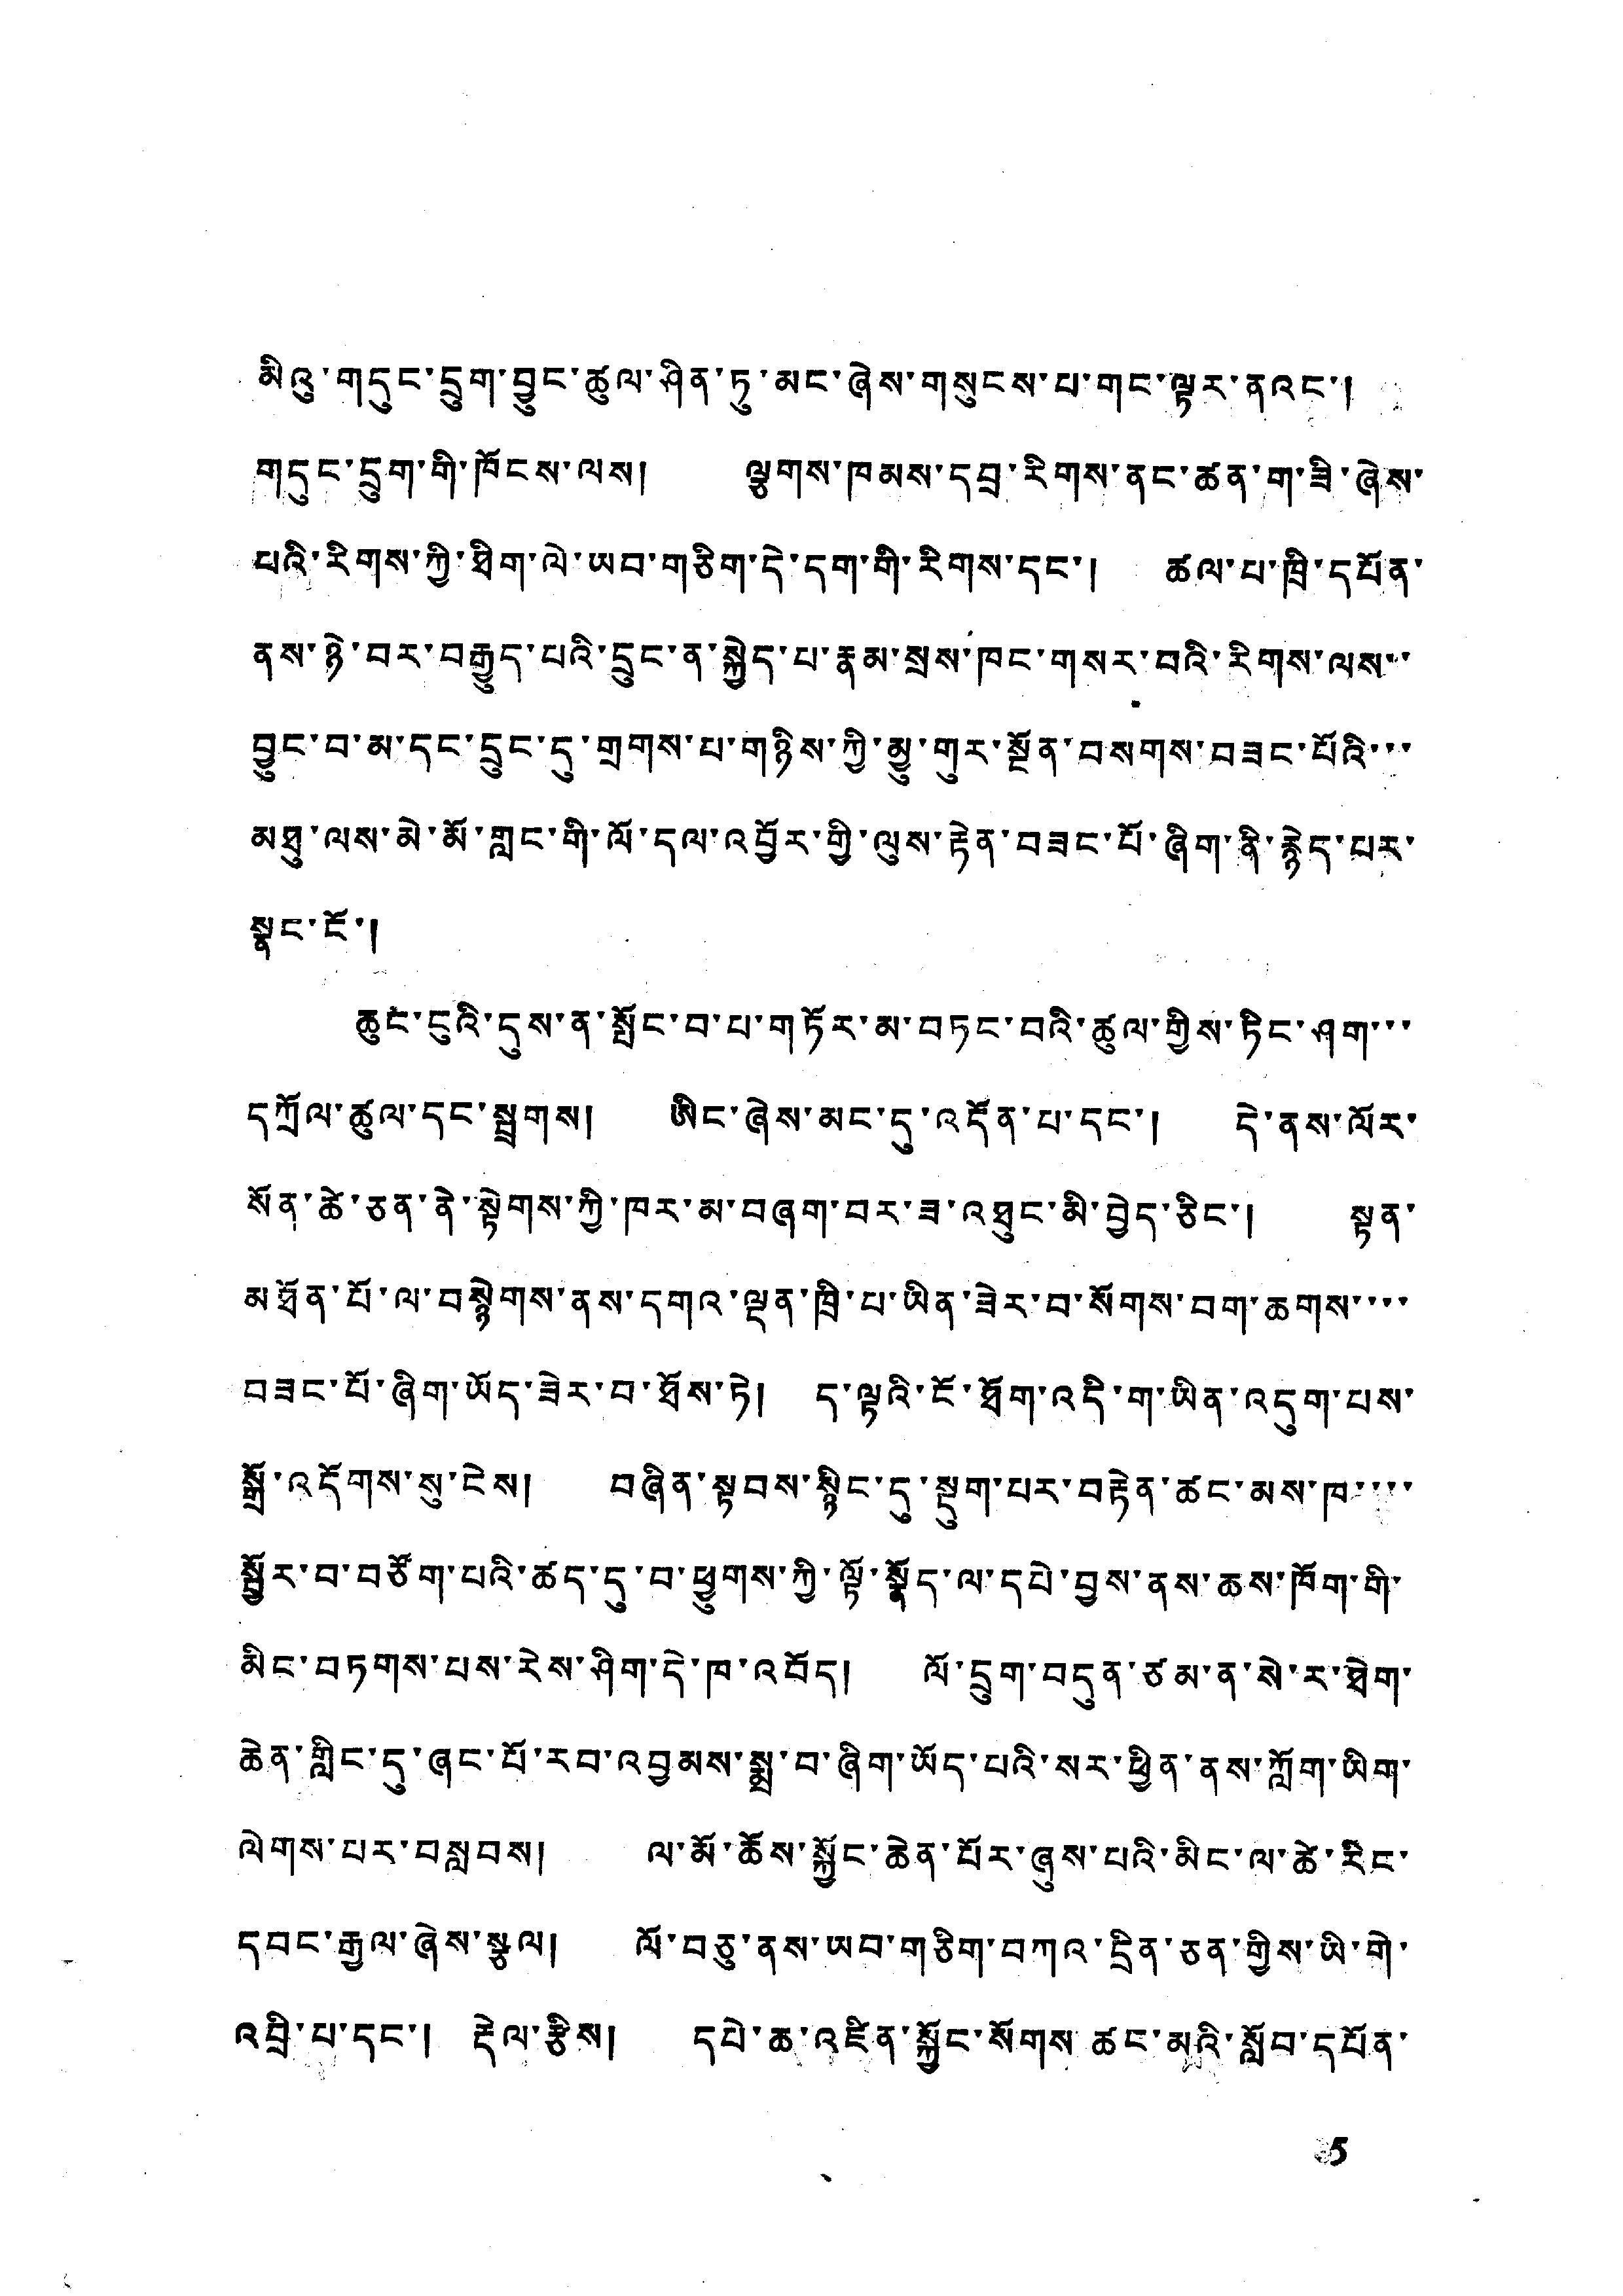མིའུ་གདུང་དྲུག་བྱུང་ཚུལ་ཤིན་ཏུ་མང་ཞེས་གསུངས་པ་གང་ལྟར་ནའང་།
གདུང་དྲུག་གི་ཁོངས་ལས། ལྕགས་ཁམས་དབྲ་རིགས་ནང་ཚན་ག་ཟི་ཞེས་
པའི་རིགས་ཀྱི་ཐིག་ལེ་ཡབ་གཅིག་དེ་དག་གི་རིགས་དང་། ཚལ་པ་ཁྲི་དཔོན་
ནས་ཉེ་བར་བརྒྱུད་པའི་དྲུང་ན་སྐྱེད་པ་རྣམ་སྲས་ཁང་གསར་བའི་རིགས་ལས་་
བྱུང་བ་མ་དང་དྲུང་དུ་གྲགས་པ་གཉིས་ཀྱི་མྱུ་གུར་སྔོན་བསགས་བཟང་པོའི་་་
མཐུ་ལས་མེ་མོ་གླང་གི་ལོ་དལ་འབྱོར་གྱི་ལུས་རྟེན་བཟང་པོ་ཞིག་ནི་རྙེད་པར་
སྣང་ངོ་།
ཆུང་ངུའི་དུས་ན་སྤོང་བ་པ་གཏོར་མ་བཏང་བའི་ཚུལ་གྱིས་ཉིང་ཤག་་་
དཀྲོལ་ཚུལ་དང་སྦྲགས། ཞིང་ཞེས་མང་དུ་འདོན་པ་དང་། དེ་ནས་ལོར་
སོན་ཚེ་ཅན་ནེ་སྟེགས་ཀྱི་ཁར་མ་བཞག་བར་ཟ་འཐུང་མི་བྱེད་ཅིང་། སྙན་
མཐོན་པོ་ལ་བསྟེགས་ནས་དགའ་ལྡན་ཁྲི་པ་ཡིན་ཟེར་བ་སོགས་བག་ཆགས་་་་
བཟང་པོ་ཞིག་ཡོད་ཟེར་བ་ཐོས་ཏེ། ད་ལྟའི་ངོ་ཐོག་འདི་ག་ཡིན་འདུག་པས་
སྒྲོ་འདོགས་སུ་ངེས། བཞིན་སྟབས་སྙིང་དུ་སྡུག་པར་བརྟེན་ཚང་མས་ཁ་་་་
སྦྱོར་བ་བཙོག་པའི་ཚད་དུ་བ་ཕྱུགས་ཀྱི་ལྟོ་སྣོད་ལ་དཔེ་བྱས་ནས་ཆས་ཁོག་གི་
མིང་བཏགས་པས་རེས་ཤིག་དེ་ཁ་འབོད། ལོ་དྲུག་བདུན་ཙམ་ན་སེ་ར་ཐེག་་
ཆེན་གླིང་དུ་ཞང་པོ་རབ་འབྱམས་སྨྲ་བ་ཞིག་ཡོད་པའི་སར་ཕྱིན་ནས་ཀློག་ཡིག་
ལེགས་པར་བསླབས། ལ་མོ་ཆོས་སྐྱང་ཆེན་པོར་ཞུས་པའི་མིང་ལ་ཚེ་རིང་
དབང་རྒྱལ་ཞེས་སྩལ། ལོ་བཅུ་ནས་ཡབ་གཅིག་བཀའ་དྲིན་ཅན་གྱིས་ཡི་གེ་
འབྲ་པ་དང་། རྡེལ་རྩིས། དཔེ་ཆ་འཛིན་སྐྱོང་སོགས་ཚང་མའི་སློབ་དཔོན་་
5
